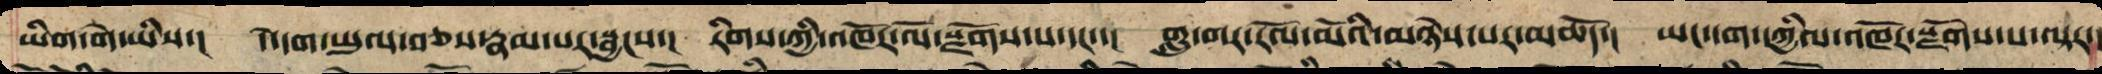ཡི་གེ་ཡིས་། དེ་དག་ཡུལ་བཅས་རྣམ་པར་སྦྱངས་། རིགས་ཀྱི་འཁོར་ལོ་སྫོགས་པ་དང་་། གླུ་གར་རོལ་མོས་མཉེས་པར་མཆོད་། ཡང་དག་དཀྱིལ་འཁོར་སྫོགས་པ་ལྟར་།
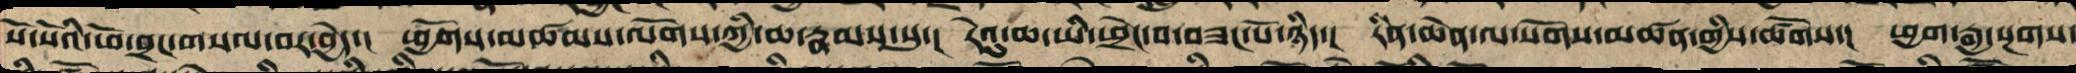སོ་སོའི་ཕོ་བྲང་གསལ་བར་བྱེད་། ཕྱོགས་མཚམས་ལོགས་ཀྱི་ཆ་རྣམས་སུ་། རེའུ་ཆ་ཡི་ཕྲེང་བ་བཟང་པོ་ཉིད་། རིན་ཆེན་ལ་སོགས་མཚན་གྱི་ཚོགས་། ཕྱག་རྒྱ་སྔགས་
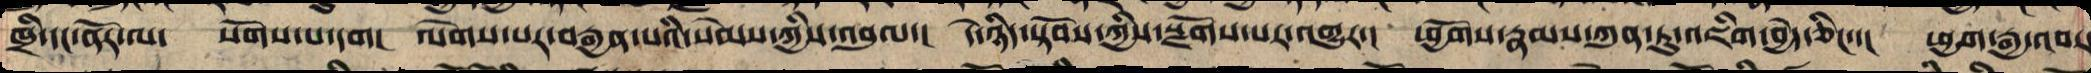ཁྲི་དང་ནོར་ལ་སོགས་པ་དག། ལེགས་པར་བརྒྱན་པའི་སེམས་ཀྱིས་འབུལ་། དེ་ཉིད་སྟོབས་ཀྱིས་སྫོགས་པར་འགྱུར་། ཕྱོགས་རྣམས་ཀུན་ཏུ་འཇིག་བྱེད་ཅིང་་། ཕྱག་རྒྱ་འབར་
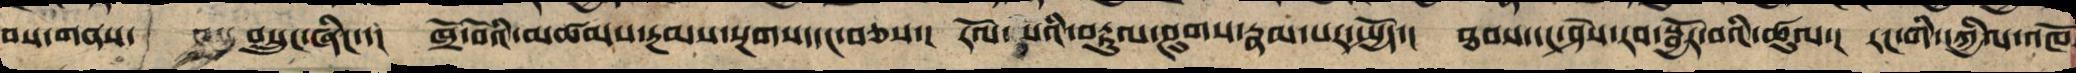བས་གནས་བསྲུངས་ཞིང་་། ཁྲོ་བོའི་མཚམས་རྔམས་སྔགས་དང་བཅས་། རོལ་པའི་བརྟུལ་ཤུགས་རྣམ་པར་སྤྱོད་། ཐབས་དང་ཤེས་རབ་སྦྱོར་བའི་ཚུལ་། རང་གི་དཀྱིལ་འཁོ
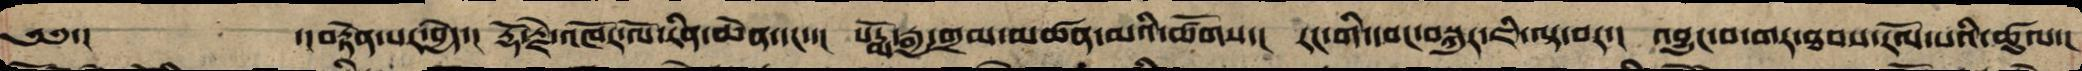༄༅་། ་།བརྟེན་པར་བྱེད་། རྡོ་རྗེ་འཁོར་ལོ་རིན་ཆེན་དང་་། པདྨོ་རྒྱ་གྲམ་མཚན་མའི་ཚོགས་། རང་གི་དབང་བསྐུར་ཇི་ལྟ་བར་། འབྱུང་བ་གར་ཐབས་རོལ་པའི་ཚུལ་།
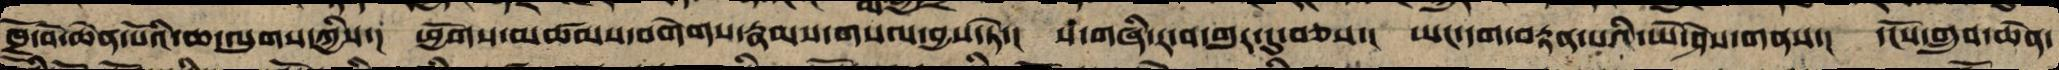ཁྲོ་བོ་ཆེན་པོའི་ཆ་ལུགས་ཀྱིས་། ཕྱོགས་མཚམས་བགེགས་རྣམས་བསལ་བྱས་ཏེ་། ས་གཞི་ར་བ་གུར་དུ་བཅས་། ཡང་དག་བརྟན་པའི་ཡེ་ཤེས་གནས་། དངོས་གྲུབ་ཆེན་
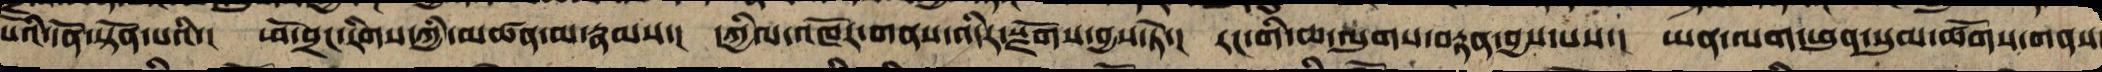པོའི་དོན་སྟོན་པའི་། ཕོ་བྲང་རིགས་ཀྱི་མཚན་མ་རྣམས་། དཀྱིལ་འཁོར་གནས་འདིར་སྫོགས་བྱས་ཏེ་། རང་གི་ཆ་ལུགས་བརྟན་བྱས་པས་། ཡན་ལག་ཕུན་སུམ་ཚོགས་གནས་
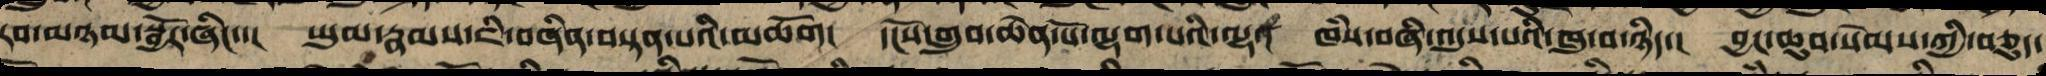རབ་མཉམ་སྦྱོར་ཞིང་་། ཡུམ་རྣམས་ཇི་བཞིན་བསྟན་པའི་མཆོག། དངོས་གྲུབ་ཆེན་པོ་ལྷག་པའི་ལྷ་། ཁཾས་བཞི་འདུས་པའི་ཁུ་བ་ཉིད་། བྱང་ཆུབ་སེམས་ཀྱི་བཅུད་
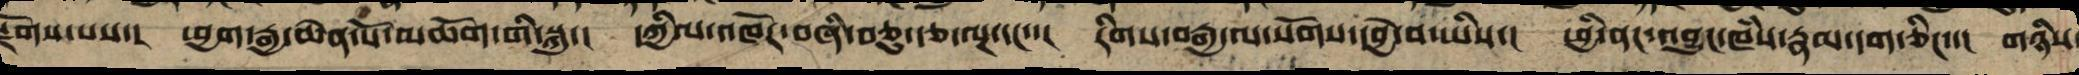སྫོགས་པས་། ཕྱག་རྒྱ་ཆེན་པོ་མཆོག་གི་སྐུ་། དཀྱིལ་འཁོར་བཞི་བཅུ་རྩ་ལྔ་དང་་། རིགས་བརྒྱ་ལ་སོགས་དབྱེ་བ་ཡིས་། ཕྱི་ནང་འབྱུང་ཁཾས་རྣམ་དག་ཅིང་་། གཉིས
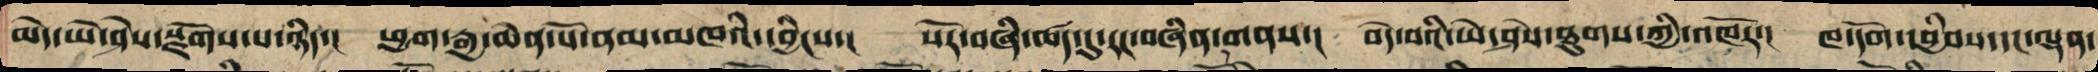མེད་ཡེ་ཤེས་སྫོགས་པ་ཉིད་། ཕྱག་རྒྱ་ཆེན་པོ་ནམ་མཁའི་དབྱིངས་། སོར་བཞི་ཚད་དུ་རང་བཞིན་གནས་། བདེ་བའི་ཡེ་ཤེས་ཐུགས་ཀྱི་འཁོར་། ཁ་དོག་དབྱིབས་དང་ལྡན་
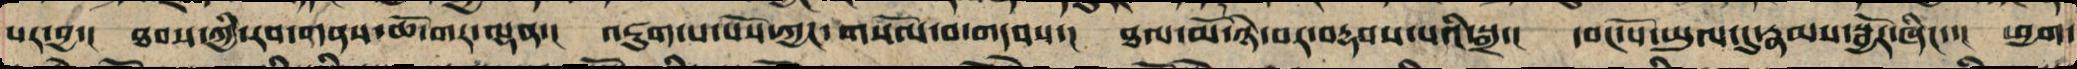པར་བྱ་། ཐབས་ཀྱི་རབ་གནས་ཆོ་གར་ལྡན་། འཇུག་པ་པོས་ཀྱང་གསོལ་བ་གདབ་། ཐལ་མོ་ཉེ་བར་བརྡབ་པའི་སྒྲ་། དབང་པོ་ཡུལ་དུ་རྣམ་སྦྱོར་ཞིང་་། ཕྱག་
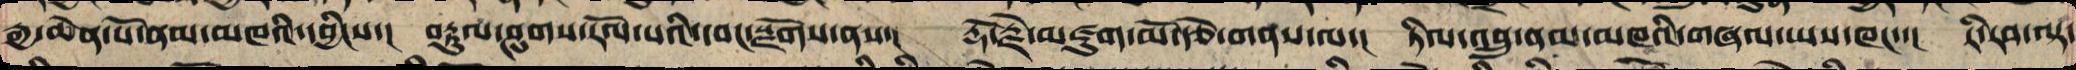རྒྱ་ཆེན་པོ་ནམ་མཁའི་དབྱིངས་། བརྟུལ་ཤུགས་རོལ་པའི་དབང་སྫོགས་ནས་། རྡོ་རྗེ་མཛུག་མོའི་རྩེ་གནས་ལ་། ཏིལ་འབྲུ་ནམ་མཁའི་གཞལ་ཡས་ཁང་་། རི་རབ་ལྟ་
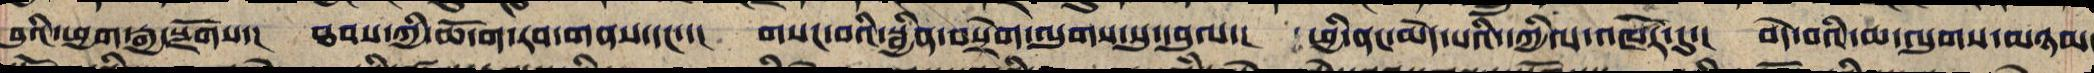བུའི་ཕྱག་རྒྱ་སྫོགས་། ཐབས་ཀྱི་ཆོ་ག་རབ་གནས་དང་་། གསང་བའི་སྦྱིན་བསྲེག་ལུགས་སུ་དབུལ་། ཕྱི་ནང་མེད་པའི་དཀྱིལ་འཁོར་དུ་། བདེ་བའི་ཆ་ལུགས་མཉམ་
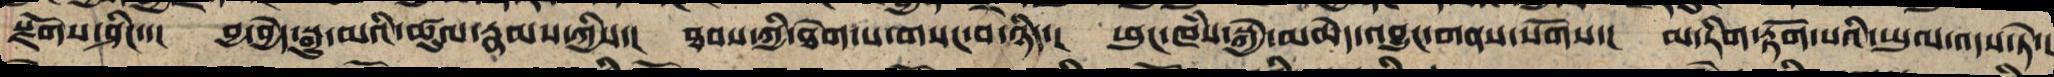སྫོགས་ཤིང་་། བྱ་བྱེད་སྒྱུ་མའི་ཚུལ་རྣམས་ཀྱིས་། ཐབས་ཀྱི་ཐེག་པ་གསང་བ་ཉིད་། ཕུང་ཁཾས་སྐྱེ་མཆེད་འབྱུང་གནས་སོགས་། མ་རིག་རྟོག་པའི་ཡུལ་འདས་ཏེ་།
